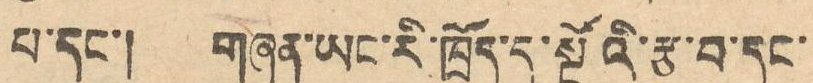པ་དང་། གཞན་ཡང་རི་ཁྲོད་དུ་སྔོའི་རྩ་བ་དང་
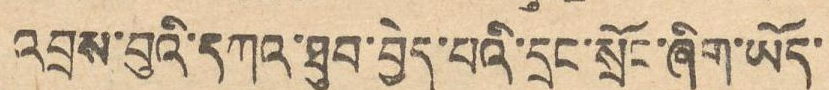འབྲས་བུའི་དཀའ་ཐུབ་བྱེད་པའི་དྲང་སྲོང་ཞིག་ཡོད་
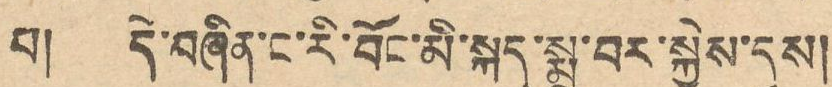པ། དེ་བཞིན་ང་རི་བོང་མི་སྐད་སྨྲ་བར་སྐྱེས་དུས།
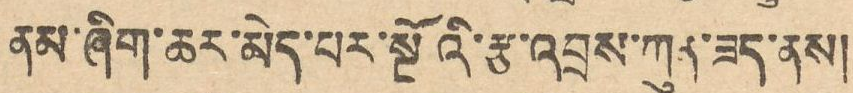ནམ་ཞིག་ཆར་མེད་པར་སྔོའི་རྩ་འབྲས་ཀུན་ཟད་ནས།
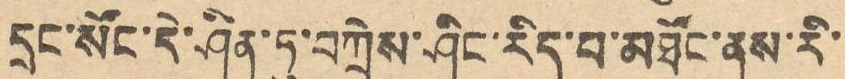དྲང་སོང་དེ་ཤིན་ཏུ་བཀྲེས་ཤིང་རིད་བ་མཐོང་ནས་རི་
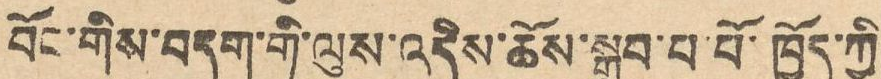བོང་གིས་བདག་གི་ལུས་འདིས་ཆོས་སྒྲུབ་པ་པོ་ཁྱོད་ཀྱི
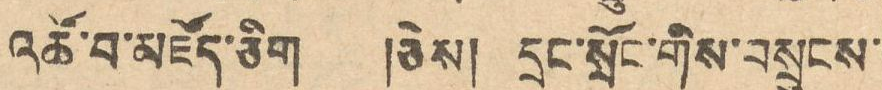འཚོ་བ་མཛོད་ཅིག །ཅེས། དྲང་སྲོང་གིས་བསྲུངས་
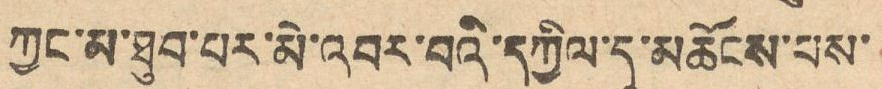ཀྱང་མ་ཐུབ་པར་མེ་འབར་བའི་དཀྱིལ་དུ་མཆོངས་པས
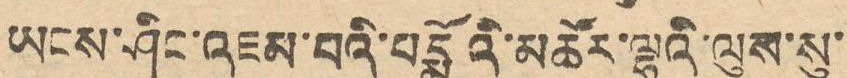ཡངས་ཤིང་འཇམ་པའི་པདྨོའི་མཚོར་ལྷའི་ལུས་སུ་
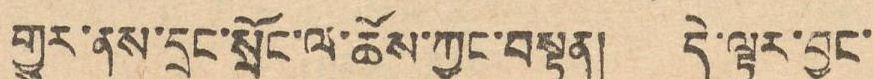གྱུར་ནས་དྲང་སྲོང་ལ་ཆོས་ཀྱང་བསྟན། དེ་ལྟར་བྱང་
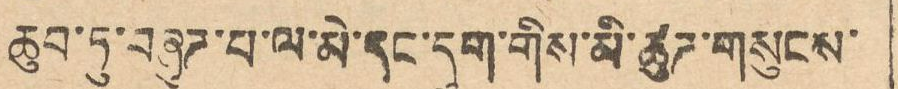ཆུབ་ཏུ་བཞུཊ་པ་ལ་མེ་དང་དུག་གིས་མི་ཚུཊ་གསུངས་
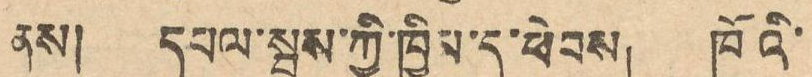ནས། དཔལ་སྦས་ཀྱི་ཁྱིམ་དུ་ཕེབས། ཁོའི་
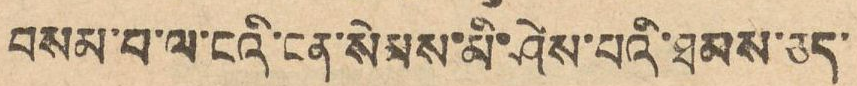བསམ་པ་ལ་ངའི་ངན་སེམས་མི་ཤེས་པའི་ཐམས་ཅད་
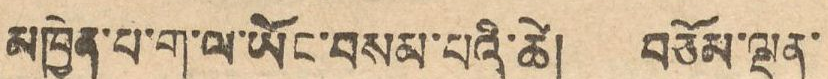མཁྱེན་པ་ག་ལ་ཡོང་བསམ་པའི་ཚེ། བཅོམ་ལྡན་
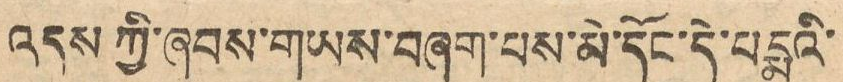འདས ཀྱི་ཞབས་གཡས་བཞག་པས་མེ་དོང་དེ་པདྨའི་
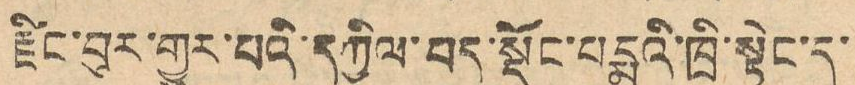རྫིང་བུར་གྱུར་པའི་དཀྱིལ་པད་སྡོང་པདྨའི་ཁྲི་སྟེང་དུ་
